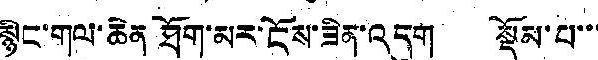སྙིང་གལ་ཆེན ཐོག་མར་ངོས་ཟིན་འདུག སྡོམ་པ་་་
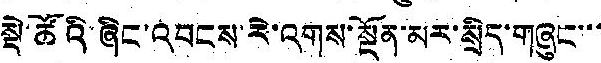སྡེ་ཚོའི་ཞིང་འབངས་རེ་འགས་སྔོན་མར་སྲིད་གཞུང་་་
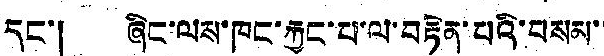དང་། ཞིང་ལས་ཁང་རྐྱང་པ་ལ་བརྟེན་པའི་བསམ་་
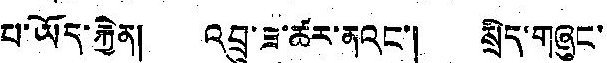པ་ཡོད་རྐྱེན། འབྲུ་ཟ་ཚར་ནའང་། སྲིད་གཞུང་
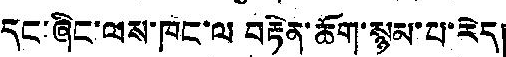དང་ཞིང་ལས་ཁང་ལ བརྟེན་ཆོག་སྙམ་པ་རེད།
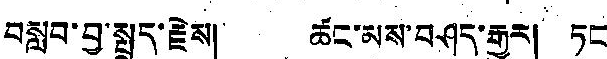བསླབ་བྱ་སྤྲད་རྗེས། ཚང་མས་བཤད་རྒྱུར། ཏང
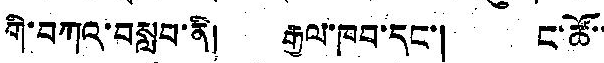གི་བཀའ་བསླབ་ནི། རྒྱལ་ཁབ་དང་། ང་ཚོ་་
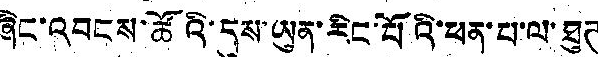ཞིང་འབངས་ཚོའི་དུས་ཡུན་རིང་པོའི་ཕན་པ་ལ་ཐུཊ
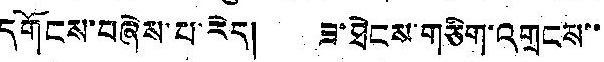དགོངས་བཞེས་པ་རེད། ཟ་ཐེངས་གཅིག་འགྲངས་་
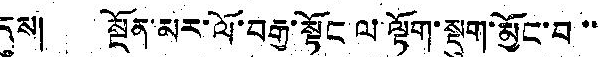དུས། སྔོན་མར་ལོ་བརྒྱ་སྟོང ལ་ལྟོག་སྡུག་མྱོང་བ་་
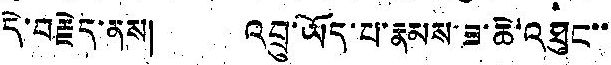དེ་བརྗེད་ནས། འབྲུ་ཡོད་པ་རྣམས་ཟ་ཆེ་འཐུང་་
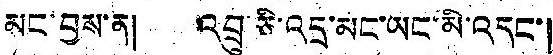མང་བྱས་ན། འབྲུ་ཅི་འདྲ་མང་ཡང་མི་འདང་།
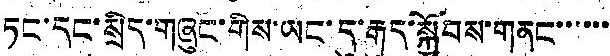ཏང་དང་སྲིད་གཞུང་གིས་ཡང་དུ་རྒུད་སྐྱོབས་གནང་་་་་་
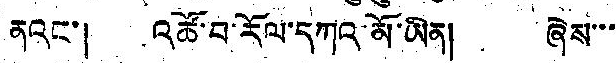ནའང་། འཚོ་བ་རོལ་དཀའ་མོ་ཡིན། ཞེས་་་
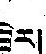ཟེར།
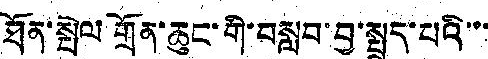ཐོན་སྤེལ་གྲོན་ཆུང་གི་བསླབ་བྱ་སྤྲད་པའི་་་
